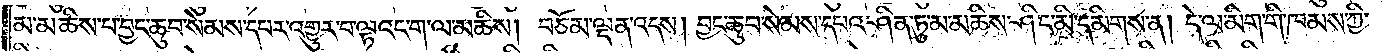མ་མཆིས་པ་བྱང་ཆུབ་སེམས་དཔར་འགྱུར་བ་ལྟའང་ག་ལ་མཆིས། བཅོམ་ལྡན་འདས། བྱང་ཆུབ་སེམས་དཔའ་ཤིན་ཏུ་མ་མཆིས་ཤིང་མི་དམིགས་ན། དེ་ལ་མིག་གི་ཁམས་ཀྱི་
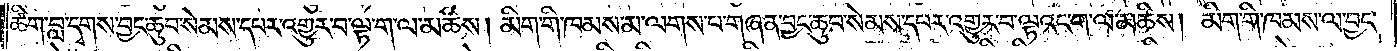ཚིག་བླ་དྭགས་བྱང་ཆུབ་སེམས་དཔར་འགྱུར་བ་ལྟ་ག་ལ་མཆིས། མིག་གི་ཁམས་མ་ལགས་པ་གཞན་བྱང་ཆུབ་སེམས་དཔར་འགྱུར་བ་ལྟའང་ག་ལ་མཆིས། མིག་གི་ཁམས་ལ་བྱང་
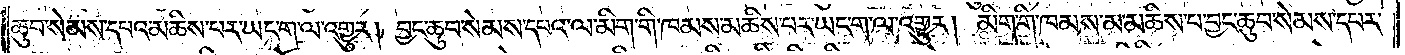ཆུབ་སེམས་དཔའ་མཆིས་པར་ཡང་ག་ལ་འགྱུར། བྱང་ཆུབ་སེམས་དཔའ་ལ་མིག་གི་ཁམས་མཆིས་པར་ཡང་ག་ལ་འགྱུར། མིག་གི་ཁམས་མ་མཆིས་པ་བྱང་ཆུབ་སེམས་དཔར་
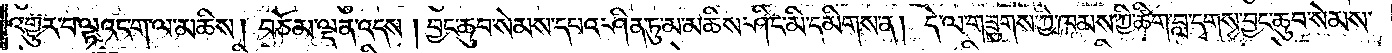འགྱུར་བ་ལྟའང་ག་ལ་མཆིས། བཅོམ་ལྡན་འདས། བྱང་ཆུབ་སེམས་དཔའ་ཤིན་ཏུ་མ་མཆིས་ཤིང་མི་དམིགས་ན། དེ་ལ་གཟུགས་ཀྱི་ཁམས་ཀྱི་ཚིག་བླ་དྭགས་བྱང་ཆུབ་སེམས་
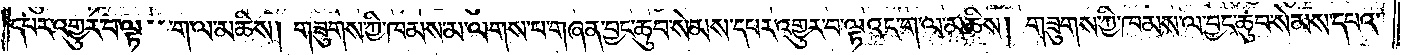དཔར་འགྱུར་བ་ལྟའང་ག་ལ་མཆིས། གཟུགས་ཀྱི་ཁམས་མ་ལགས་པ་གཞན་བྱང་ཆུབ་སེམས་དཔར་འགྱུར་བ་ལྟའང་ག་ལ་མཆིས། གཟུགས་ཀྱི་ཁམས་ལ་བྱང་ཆུབ་སེམས་དཔའ་
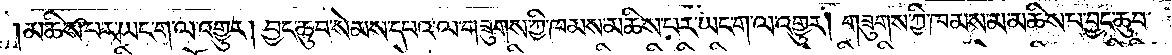མཆིས་པར་ཡང་ག་ལ་འགྱུར། བྱང་ཆུབ་སེམས་དཔའ་ལ་གཟུགས་ཀྱི་ཁམས་མཆིས་པར་ཡང་ག་ལ་འགྱུར། གཟུགས་ཀྱི་ཁམས་མ་མཆིས་པ་བྱང་ཆུབ་
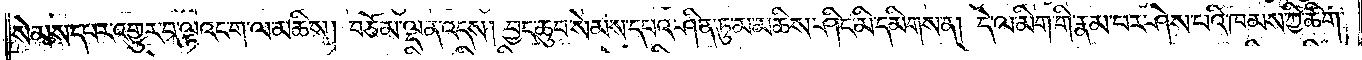སེམས་དཔར་འགྱུར་བ་ལྟའང་ག་ལ་མཆིས། བཅོམ་ལྡན་འདས། བྱང་ཆུབ་སེམས་དཔའ་ཤིན་ཏུ་མ་མཆིས་ཤིང་མི་དམིགས་ན། དེ་ལ་མིག་གི་རྣམ་པར་ཤེས་པའི་ཁམས་ཀྱི་ཚིག་
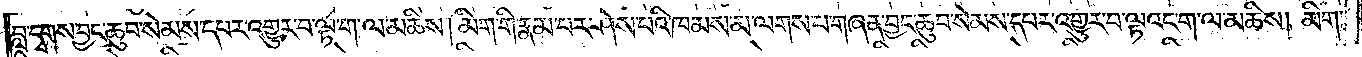བླ་དྭགས་བྱང་ཆུབ་སེམས་དཔར་འགྱུར་བ་ལྟ་ག་ལ་མཆིས། མིག་གི་རྣམ་པར་ཤེས་པའི་ཁམས་མ་ལགས་པ་གཞན་བྱང་ཆུབ་སེམས་དཔར་འགྱུར་བ་ལྟའང་ག་ལ་མཆིས། མིག་
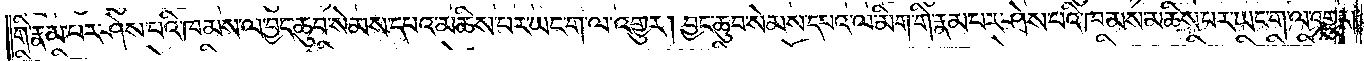གི་རྣམ་པར་ཤེས་པའི་ཁམས་ལ་བྱང་ཆུབ་སེམས་དཔའ་མཆིས་པར་ཡང་ག་ལ་འགྱུར། བྱང་ཆུབ་སེམས་དཔའ་ལ་མིག་གི་རྣམ་པར་ཤེས་པའི་ཁམས་མཆིས་པར་ཡང་ག་ལ་འགྱུར།
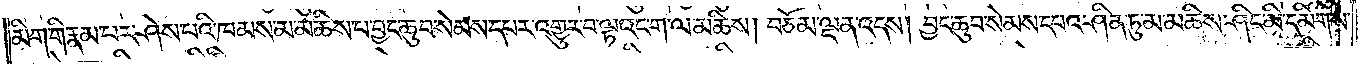མིག་གི་རྣམ་པར་ཤེས་པའི་ཁམས་མ་མཆིས་པ་བྱང་ཆུབ་སེམས་དཔར་འགྱུར་བ་ལྟའང་ག་ལ་མཆིས། བཅོམ་ལྡན་འདས། བྱང་ཆུབ་སེམས་དཔའ་ཤིན་ཏུ་མ་མཆིས་ཤིང་མི་དམིགས་
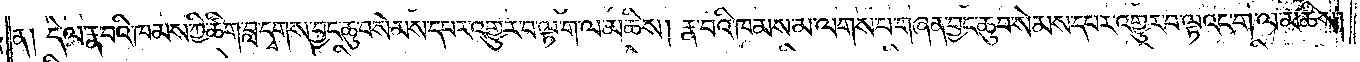ན། དེ་ལ་རྣ་བའི་ཁམས་ཀྱི་ཚིག་བླ་དྭགས་བྱང་ཆུབ་སེམས་དཔར་འགྱུར་བ་ལྟ་ག་ལ་མཆིས། རྣ་བའི་ཁམས་མ་ལགས་པ་གཞན་བྱང་ཆུབ་སེམས་དཔར་འགྱུར་བ་ལྟའང་ག་ལ་མཆིས།
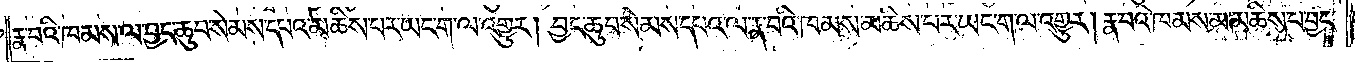རྣ་བའི་ཁམས་ལ་བྱང་ཆུབ་སེམས་དཔའ་མཆིས་པར་ཡང་ག་ལ་འགྱུར། བྱང་ཆུབ་སེམས་དཔའ་ལ་རྣ་བའི་ཁམས་མཆིས་པར་ཡང་ག་ལ་འགྱུར། རྣ་བའི་ཁམས་མ་མཆིས་པ་བྱང་
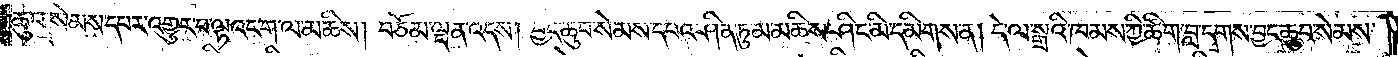ཆུབ་སེམས་དཔར་འགྱུར་བ་ལྟའང་ག་ལ་མཆིས། བཅོམ་ལྡན་འདས། བྱང་ཆུབ་སེམས་དཔའ་ཤིན་ཏུ་མ་མཆིས་ཤིང་མི་དམིགས་ན། དེ་ལ་སྒྲའི་ཁམས་ཀྱི་ཚིག་བླ་དྭགས་བྱང་ཆུབ་སེམས་
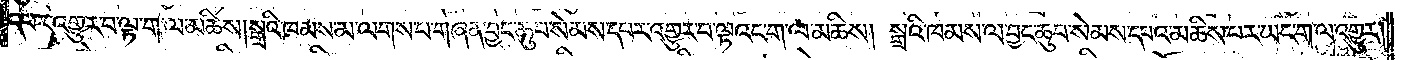དཔར་འགྱུར་བ་ལྟ་ག་ལ་མཆིས། སྒྲའི་ཁམས་མ་ལགས་པ་གཞན་བྱང་ཆུབ་སེམས་དཔར་འགྱུར་བ་ལྟའང་ག་ལ་མཆིས། སྒྲའི་ཁམས་ལ་བྱང་ཆུབ་སེམས་དཔའ་མཆིས་པར་ཡང་ག་ལ་འགྱུར།
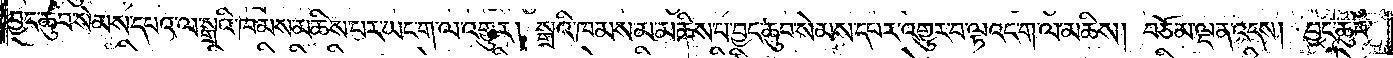བྱང་ཆུབ་སེམས་དཔའ་ལ་སྒྲའི་ཁམས་མཆིས་པར་ཡང་ག་ལ་འགྱུར། སྒྲའི་ཁམས་མ་མཆིས་པ་བྱང་ཆུབ་སེམས་དཔར་འགྱུར་བ་ལྟའང་ག་ལ་མཆིས། བཅོམ་ལྡན་འདས། བྱང་ཆུབ་
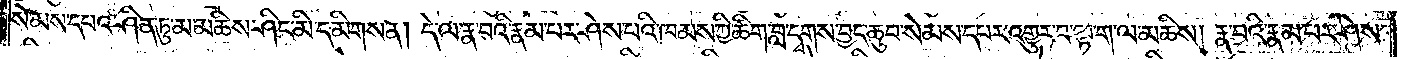སེམས་དཔའ་ཤིན་ཏུ་མ་མཆིས་ཤིང་མི་དམིགས་ན། དེ་ལ་རྣ་བའི་རྣམ་པར་ཤེས་པའི་ཁམས་ཀྱི་ཚིག་བླ་དྭགས་བྱང་ཆུབ་སེམས་དཔར་འགྱུར་བ་ལྟ་ག་ལ་མཆིས། རྣ་བའི་རྣམ་པར་ཤེས་
